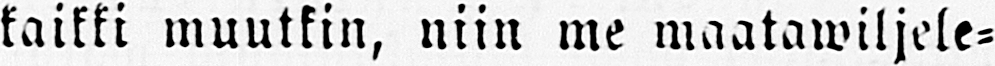kaikki muutkin, niin me maatawiljele-
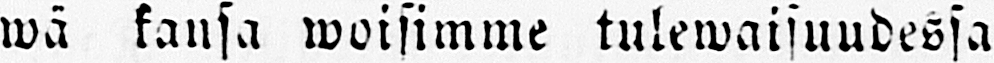wä kansa woisimme tulewaisuudessa
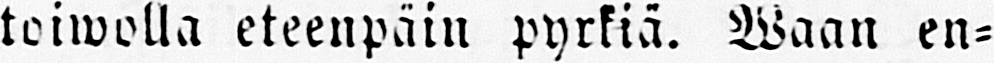toiwolla eteenpäin pyrkiä. Waan en-
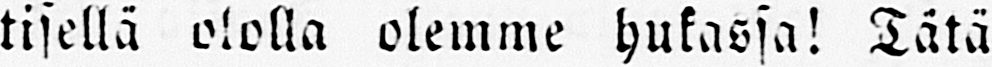tisellä ololla olemme hukassa! Tätä
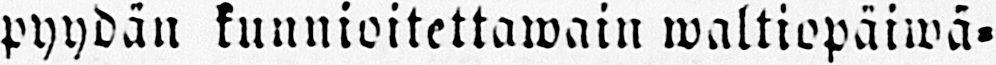pyydän kunnioitettawain waltiopäiwä-
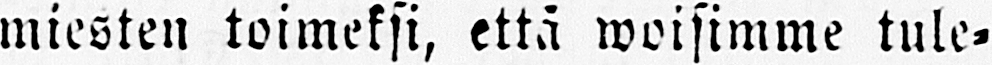miesten toimeksi, että woisimme tule-
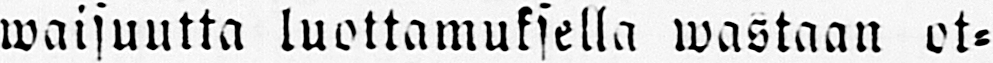waisuutta luottamuksella wastaan ot-
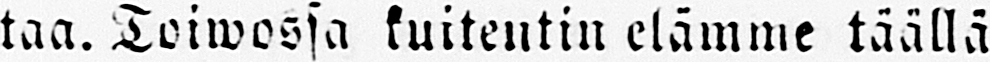taa. Toiwossa kuitentin elämme täällä
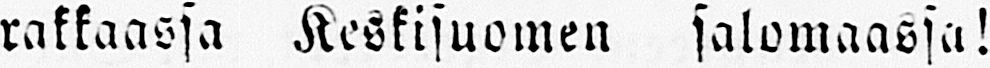rakkaassa Keskisuomen salomaassa!
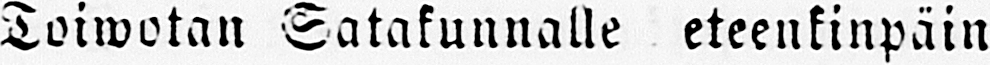Toiwotan Satakunnalle eteenkinpäin
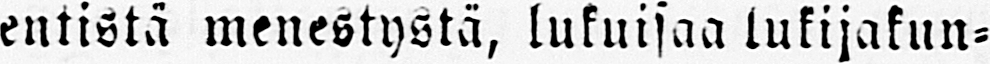entistä menestystä, lukuisaa lukijakun-
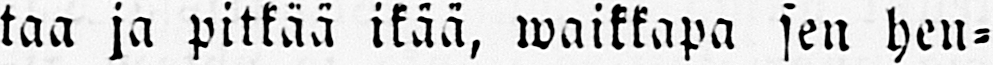taa ja pitkää ikää, waikkapa sen hen-
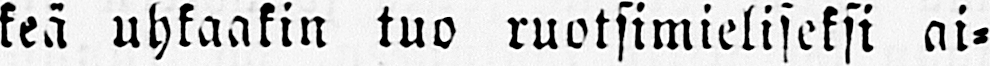keä uhkaakin tuo ruotsimieliseksi ai-
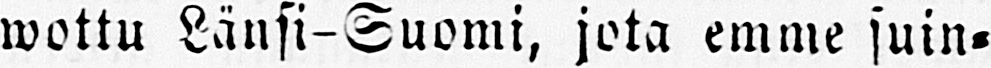wottu Länsi-Suomi, jota emme suin-
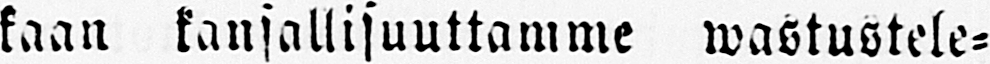kaan kansallisuuttamme Vastustele-
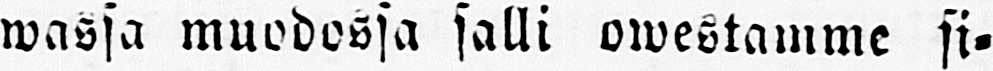wassa muodossa salli owestamme si-
